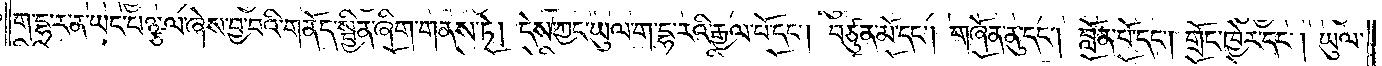ག་དྷ་ར་ན་ཡང་པཉྩ་ལ་ཞེས་བྱ་བའི་གནོད་སྦྱིན་ཞིག་གནས་ཏེ། དེས་ཀྱང་ཡུལ་ག་དྷ་རའི་རྒྱལ་པོ་དང༌། བཙུན་མོ་དང༌། གཞོན་ནུ་དང༌། བློན་པོ་དང༌། གྲོང་ཁྱེར་དང༌། ཡུལ་
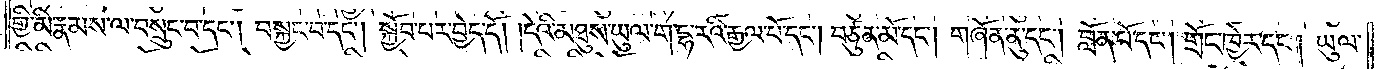གྱི་མི་རྣམས་ལ་བསྲུང་བ་དང༌། བསྐྱང་བ་དང༌། སྐྱོབ་པར་བྱེད་དོ། །དེའི་མཐུས་ཡུལ་ག་དྷ་རའི་རྒྱལ་པོ་དང༌། བཙུན་མོ་དང༌། གཞོན་ནུ་དང༌། བློན་པོ་དང༌། གྲོང་ཁྱེར་དང༌། ཡུལ་
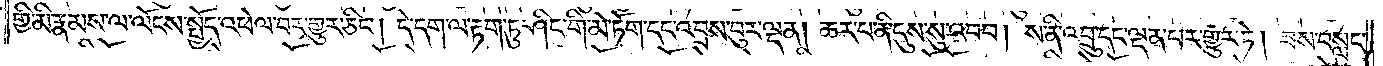གྱི་མི་རྣམས་ལ་ལོངས་སྤྱོད་འཕེལ་བར་གྱུར་ཅིང༌། དེ་དག་ལ་རྟག་ཏུ་ཤིང་གི་མེ་ཏོག་དང་འབྲས་བུར་ལྡན། ཆར་པ་ནི་དུས་སུ་འབབ། ས་ནི་འབྲུ་དང་ལྡན་པར་གྱུར་ཏེ། ཟས་བསླང་
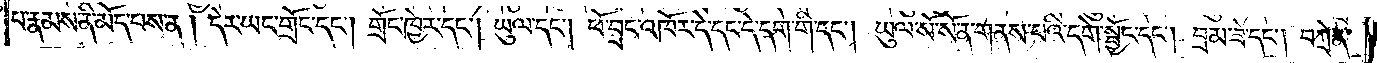པ་རྣམས་ནི་མོད་པས་ན། དེར་ཡང་གྲོང་དང༌། གྲོང་ཁྱེར་དང༌། ཡུལ་དང༌། ཕོ་བྲང་འཁོར་དེ་དང་དེ་དག་གི་དང༌། ཡུལ་སོ་སོ་ན་གནས་པའི་དགེ་སྦྱོང་དང༌། བྲམ་ཟེ་དང༌། བཀྲེན་
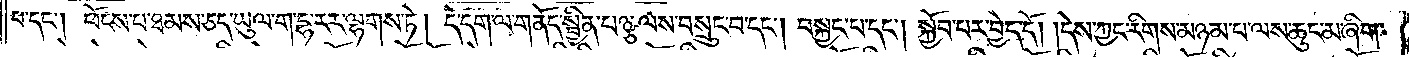པ་དང༌། ཕོངས་པ་ཐམས་ཅད་ཡུལ་ག་དྷ་རར་ལྷགས་ཏེ། དེ་དག་ལ་གནོད་སྦྱིན་པཉྩ་ལས་བསྲུང་བ་དང༌། བསྐྱང་པ་དང༌། སྐྱོབ་པར་བྱེད་དོ། །དེས་ཀྱང་རིགས་མཉམ་པ་ལས་ཆུང་མ་ཞིག་
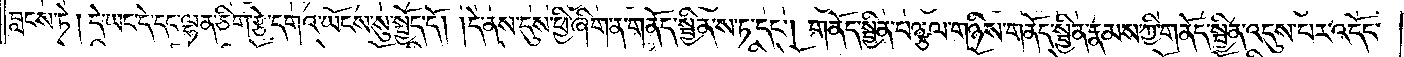བླངས་ཏེ། དེ་ཡང་དེ་དང་ལྷན་ཅིག་རྩེ་དགའ་ཡོངས་སུ་སྤྱོད་དོ། །དེ་ནས་དུས་ཕྱི་ཞིག་ན་གནོད་སྦྱིན་ས་ཏ་དང༌། གནོད་སྦྱིན་པཉྩ་ལ་གཉིས་གནོད་སྦྱིན་རྣམས་ཀྱི་གནོད་སྦྱིན་འདུས་པར་འདོང་
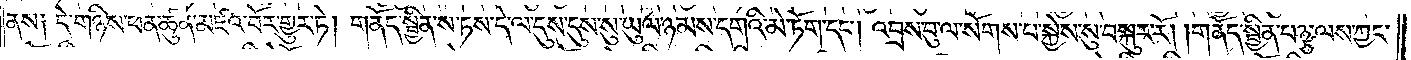ནས༑ དེ་གཉིས་ཕན་ཚུན་མཛའ་བོར་གྱུར་ཏེ། གནོད་སྦྱིན་ས་ཏས་དེ་ལ་དུས་དུས་སུ་ཡུལ་ཉམས་དགའི་མེ་ཏོག་དང༌། འབྲས་བུ་ལ་སོགས་པ་སྐྱེས་སུ་བསྐུར་རོ། །གནོད་སྦྱིན་པཉྩ་ལས་ཀྱང་
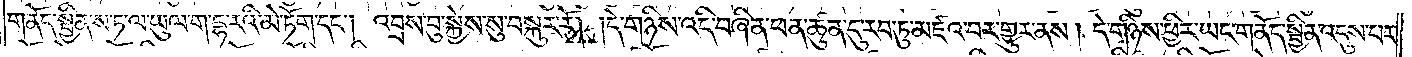གནོད་སྦྱིན་ས་ཏ་ལ་ཡུལ་ག་དྷ་རའི་མེ་ཏོག་དང༌། འབྲས་བུ་སྐྱེས་སུ་བསྐུར་རོ། །དེ་གཉིས་འདི་བཞིན་ཕན་ཚུན་དུ་རབ་ཏུ་མཛའ་བར་གྱུར་ནས། དེ་གཉིས་ཕྱིར་ཡང་གནོད་སྦྱིན་འདུས་པར་
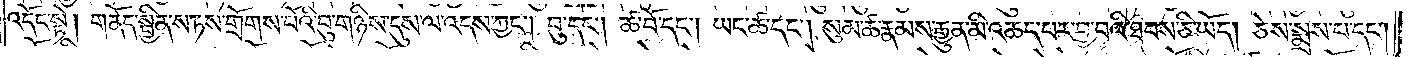འདོང་སྟེ། གནོད་སྦྱིན་ས་ཏས་གྲོགས་པོའི་བུ་གཉིས་དུས་ལ་འདས་ཀྱང༌། བུ་དང༌། ཚ་བོ་དང༌། ཡང་ཚ་དང༌། སུམ་ཚ་རྣམས་རྒྱུན་མི་འཆད་པར་བྱ་བའི་ཐབས་ཅི་ཡོད། ཅེས་སྨྲས་པ་དང༌།
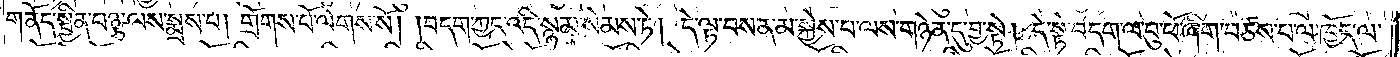གནོད་སྦྱིན་པཉྩ་ལས་སྨྲས་པ། གྲོགས་པོ་ལེགས་སོ། །བདག་ཀྱང་འདི་སྙམ་སེམས་ཏེ། དེ་ལྟ་བས་ན་མ་སྐྱེས་པ་ལས་གཉེན་དུ་བྱ་སྟེ། དེ་སྟེ་བདག་ལ་བུ་ཕོ་ཞིག་བཙས་པ་ལ་ཁྱོད་ལ་
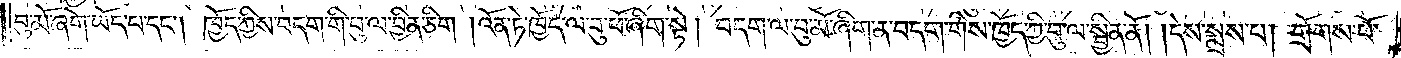བུ་མོ་ཞིག་ཡོད་པ་དང༌། ཁྱོད་ཀྱིས་བདག་གི་བུ་ལ་བྱིན་ཅིག །འོན་ཏེ་ཁྱོད་ལ་བུ་ཕོ་ཞིག་སྟེ། བདག་ལ་བུ་མོ་ཞིག་ན་བདག་གིས་ཁྱོད་ཀྱི་བུ་ལ་སྦྱིན་ནོ། །དེས་སྨྲས་པ། གྲོགས་པོ་
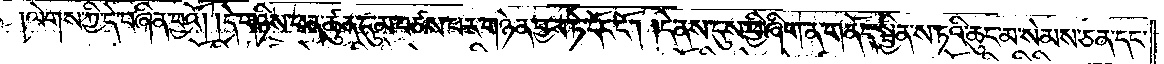།ལེགས་ཀྱི་དེ་བཞིན་བྱའོ། །དེ་གཉིས་ཕན་ཚུན་དུ་མ་བཙས་པར་གཉེན་བྱས་ཏེ་དོང་ངོ༌། །དེ་ནས་དུས་ཕྱི་ཞིག་ན་གནོད་སྦྱིན་ས་ཏའི་ཆུང་མ་སེམས་ཅན་དང་
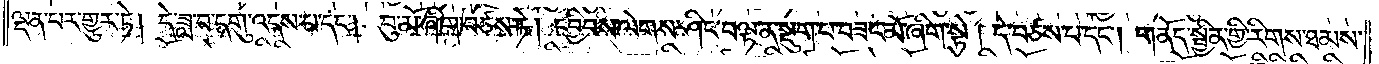ལྡན་པར་གྱུར་ཏེ། དེ་ཟླ་བ་དགུ་འདས་པ་དང༌། བུ་མོ་ཞིག་བཙས་ཏེ། དབྱིབས་ལེགས་ཤིང་བལྟ་ན་སྡུག་པ་བཟང་མོ་ཞིག་སྟེ། དེ་བཙས་པ་དང༌། གནོད་སྦྱིན་གྱི་རིགས་ཐམས་
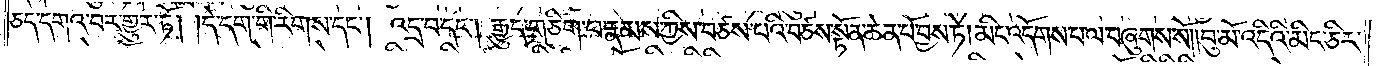ཅད་དགའ་བར་གྱུར་ཏོ། །དེ་དག་གི་རིགས་དང༌། འདྲ་བ་དང༌། རྒྱུད་གཅིག་པ་རྣམས་ཀྱིས་བཙས་པའི་བཙས་སྟོན་ཆེན་པོ་བྱས་ཏེ། མིང་འདོགས་པ་ལ་བཞུགས་སོ། །བུ་མོ་འདིའི་མིང་ཅིར་
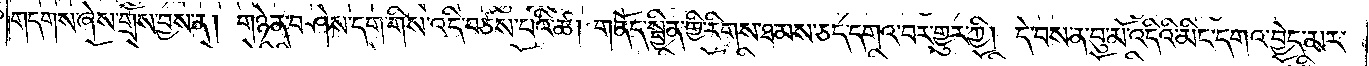གདགས་ཞེས་གྲོས་བྱས་ན། གཉེན་བཤེས་དག་གིས་འདི་བཙས་པའི་ཚེ། གནོད་སྦྱིན་གྱི་རིགས་ཐམས་ཅད་དགའ་བར་གྱུར་ཀྱི། དེ་བས་ན་བུ་མོ་འདིའི་མིང་དགའ་བྱེད་མར་
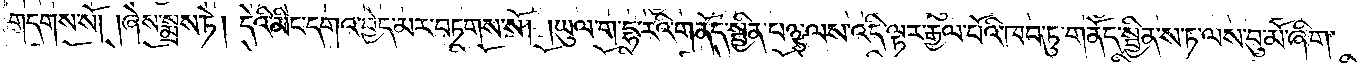གདགས་སོ། །ཞེས་སྨྲས་ཏེ། དེའི་མིང་དགའ་བྱེད་མར་བཏགས་སོ། །ཡུལ་ག་དྷ་རའི་གནོད་སྦྱིན་པཉྩ་ལས་འདི་ལྟར་རྒྱལ་པོའི་ཁབ་ཏུ་གནོད་སྦྱིན་ས་ཏ་ལས་བུ་མོ་ཞིག་
